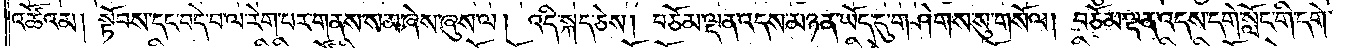འཚོའམ། སྟོབས་དང་བདེ་བ་ལ་རེག་པར་གནས་སམ་ཞེས་ཞུས་ལ། འདི་སྐད་ཅེས། བཅོམ་ལྡན་འདས་མཉན་ཡོད་དུ་གཤེགས་སུ་གསོལ། །བཅོམ་ལྡན་འདས་དགེ་སློང་གི་དགེ་
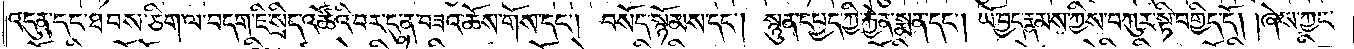འདུན་དང་ཐབས་ཅིག་ལ་བདག་ཇི་སྲིད་འཚོའི་བར་དུ་ན་བཟའ་ཆོས་གོས་དང༌། བསོད་སྙོམས་དང༌། སྙུན་དཔྱད་ཀྱིས་རྐྱེན་སྨན་དང༌། ཡོ་བྱད་རྣམས་ཀྱི་བསྐུར་སྟི་བགྱིད་དོ། །ཞེས་ཀྱང་
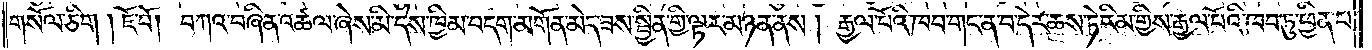གསོལ་ཅིག །ཇོ་བོ། བཀའ་བཞིན་འཚལ་ཞེས་མི་དེས་ཁྱིམ་བདག་མགོན་མེད་ཟས་སྦྱིན་གྱི་ལྟར་མཉན་ནས། །རྒྱལ་པོའི་ཁབ་གང་ན་བ་དེར་ཆས་ཏེ་རིམ་གྱིས་རྒྱལ་པོའི་ཁབ་ཏུ་ཕྱིན་པ་
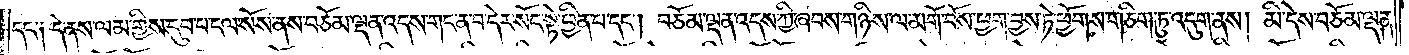དང༌༑ དེ་ནས་ལམ་གྱིས་དུབ་པ་ངལ་སོས་ནས་བཅོམ་ལྡན་འདས་གང་ན་བ་དེར་སོང་སྟེ་ཕྱིན་པ་དང༌། བཅོམ་ལྡན་འདས་ཀྱི་ཞབས་གཉིས་ལ་མགོ་བོས་ཕྱག་བྱས་ཏེ་ཕྱོགས་གཅིག་ཏུ་འདུག་ནས། མི་དེས་བཅོམ་ལྡན་
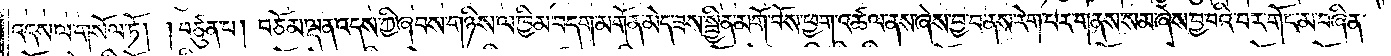འདས་ལ་གསོལ་ཏོ། །བཙུན་པ། བཅོམ་ལྡན་འདས་ཀྱི་ཞབས་གཉིས་ལ་ཁྱིམ་བདག་མགོན་མེད་ཟས་སྦྱིན་མགོ་བོས་ཕྱག་འཚལ་ནས་ཞེས་བྱ་བ་ནས་རེག་པར་གནས་སམ་ཞེས་བྱ་བའི་བར་གོང་མ་བཞིན་
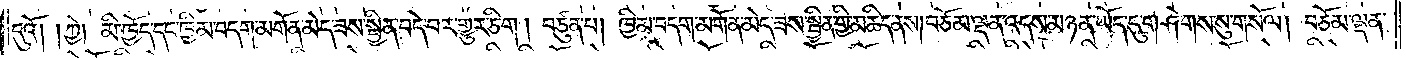དུའོ། །ཀྱེ། མི་ཁྱོད་དང་ཁྱིམ་བདག་མགོན་མེད་ཟས་སྦྱིན་བདེ་བར་གྱུར་ཅིག །བཙུན་པ། ཁྱིམ་བདག་མགོན་མེད་ཟས་སྦྱིན་གྱི་མཆིད་ནས། བཅོམ་ལྡན་འདས་མཉན་ཡོད་དུ་གཤེགས་སུ་གསོལ། །བཅོམ་ལྡན་
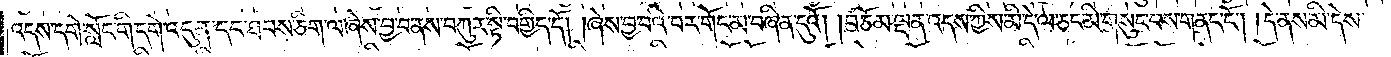འདས་དགེ་སློང་གི་དགེ་འདུན་དང་ཐབས་ཅིག་ལ་ཞེས་བྱ་བ་ནས་བཀུར་སྟི་བགྱིད་དོ། །ཞེས་བྱ་བའི་བར་གོང་མ་བཞིན་དུའོ། །བཅོམ་ལྡན་འདས་ཀྱིས་མི་དེ་ལ་ཅང་མི་གསུང་བས་གནང་ངོ༌། །དེ་ནས་མི་དེས་
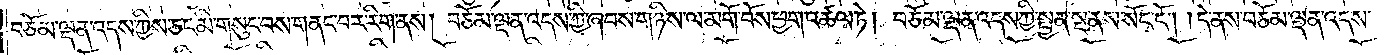བཅོམ་ལྡན་འདས་ཀྱིས་ཅང་མི་གསུང་བས་གནང་བར་རིག་ནས། བཅོམ་ལྡན་འདས་ཀྱི་ཞབས་གཉིས་ལ་མགོ་བོས་ཕྱག་འཚལ་ཏེ། བཅོམ་ལྡན་འདས་ཀྱིས་སྤྱན་སྔ་ནས་སོང་ངོ༌། །དེ་ནས་བཅོམ་ལྡན་འདས་
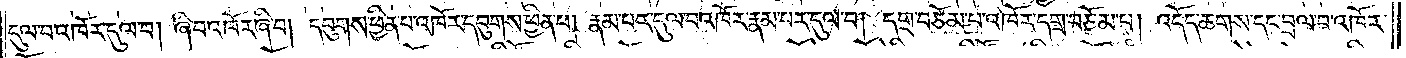དུལ་བ་འཁོར་དུལ་བ། ཞི་བ་འཁོར་ཞིག་བ། དབུགས་ཕྱིན་པ་འཁོར་དབུགས་ཕྱིན་པ། རྣམ་པར་དུལ་བ་འཁོར་རྣམ་པར་དུལ་བ། དགྲ་བཅོམ་པ་འཁོར་དགྲ་བཅོམ་པ། འདོད་ཆགས་དང་བྲལ་བ་འཁོར་
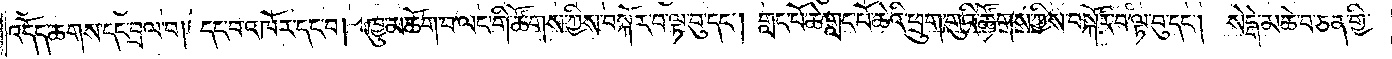འདོད་ཆགས་དང་བྲལ་བ། དང་བ་འཁོར་དང་བ། ཁྱུ་མཆོག་བ་ལང་གི་ཚོགས་ཀྱིས་བསྐོར་བ་ལྟ་བུ་དང༌། གླང་པོ་ཆེའི་གླང་པོ་ཆེའི་ཕྲུག་གུའི་ཚོགས་ཀྱིས་བསྐོར་བ་ལྟ་བུ་དང༌། སེངྒེའི་མཆེ་བ་ཅན་གྱི་
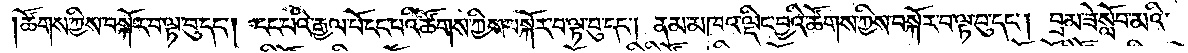ཚོགས་ཀྱིས་བསྐོར་བ་ལྟ་བུ་དང༌། ངང་པའི་རྒྱལ་པོ་ངང་པའི་ཚོགས་ཀྱིས་བསྐོར་བ་ལྟ་བུ་དང༌། ནམ་མཁའ་ལྡིང་བྱའི་ཚོགས་ཀྱིས་བསྐོར་བ་ལྟ་བུ་དང༌། བྲམ་ཟེ་སློབ་མའི་
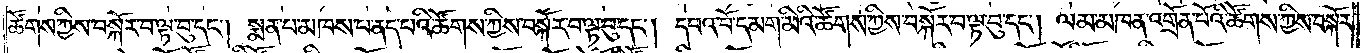ཚོགས་ཀྱིས་བསྐོར་བ་ལྟ་བུ་དང༌། སྨན་པ་མཁས་པ་ནད་པའི་ཚོགས་ཀྱིས་བསྐོར་བ་ལྟ་བུ་དང༌། དཔའ་བོ་དམག་མིའི་ཚོགས་ཀྱིས་བསྐོར་བ་ལྟ་བུ་དང༌། ལམ་མཁན་འགྲོན་པོའི་ཚོགས་ཀྱིས་བསྐོར་
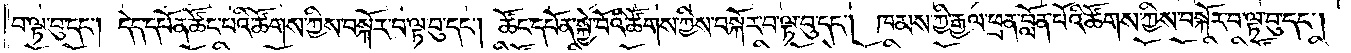བ་ལྟ་བུ་དང༌། དེད་དཔོན་ཚོང་པའི་ཚོགས་ཀྱིས་བསྐོར་བ་ལྟ་བུ་དང༌། ཚོང་དཔོན་སྐྱེ་བོའི་ཚོགས་ཀྱིས་བསྐོར་བ་ལྟ་བུ་དང༌། ཁམས་ཀྱི་རྒྱལ་ཕྲན་བློན་པོའི་ཚོགས་ཀྱིས་བསྐོར་བ་ལྟ་བུ་དང༌།
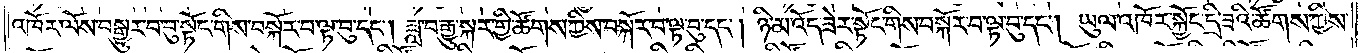འཁོར་ལོས་བསྒྱུར་བ་བུ་སྟོང་གིས་བསྐོར་བ་ལྟ་བུ་དང༌། ཟླ་བ་རྒྱུ་སྐར་གྱི་ཚོགས་ཀྱིས་བསྐོར་བ་ལྟ་བུ་དང༌། ཉི་མ་འོད་ཟེར་སྟོང་གིས་བསྐོར་བ་ལྟ་བུ་དང༌། ཡུལ་འཁོར་སྐྱོང་དྲི་ཟའི་ཚོགས་ཀྱིས་
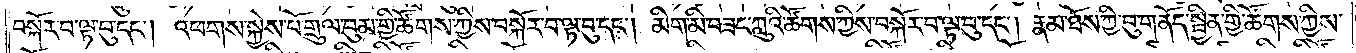བསྐོར་བ་ལྟ་བུ་དང༌། འཕགས་སྐྱེས་པོ་གྲུལ་བུམ་གྱི་ཚོགས་ཀྱིས་བསྐོར་བ་ལྟ་བུ་དང༌། མིག་མི་བཟང་ཀླུའི་ཚོགས་ཀྱིས་བསྐོར་བ་ལྟ་བུ་དང༌། རྣམ་ཐོས་ཀྱི་བུ་གནོད་སྦྱིན་གྱི་ཚོགས་ཀྱིས་
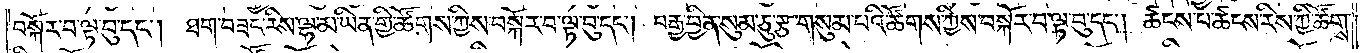བསྐོར་བ་ལྟ་བུ་དང༌། ཐག་བཟང་རིས་ལྷ་མ་ཡིན་གྱི་ཚོགས་ཀྱིས་བསྐོར་བ་ལྟ་བུ་དང༌། བརྒྱ་བྱིན་སུམ་ཅུ་རྩ་གསུམ་པའི་ཚོགས་ཀྱིས་བསྐོར་བ་ལྟ་བུ་དང༌། ཚངས་པ་ཚངས་རིས་ཀྱི་ཚོགས་
